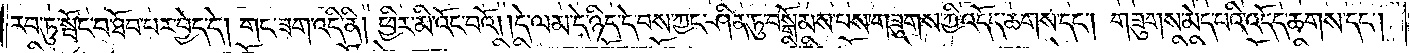རབ་ཏུ་སྤོང་བ་ཐོབ་པར་བྱེད་དེ། གང་ཟག་འདི་ནི། ཕྱིར་མི་འོང་བའོ། །དེ་ལམ་དེ་ཉིད་དེ་བས་ཀྱང་ཤིན་ཏུ་བསྒོམས་པས་གཟུགས་ཀྱི་འདོད་ཆགས་དང༌། གཟུགས་མེད་པའི་འདོད་ཆགས་དང༌།
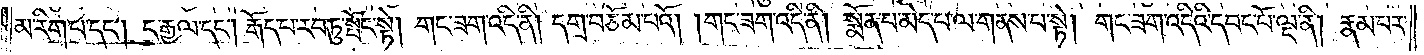མ་རིག་པ་དང༌། ང་རྒྱལ་དང༌། རྒོད་པ་རབ་ཏུ་སྤོང་སྟེ། གང་ཟག་འདི་ནི། དགྲ་བཅོམ་པའོ། །གང་ཟག་འདི་ནི། སྨོན་པ་མེད་པ་ལ་གནས་པ་སྟེ། གང་ཟག་འདིའི་དབང་པོ་ལྔ་ནི། རྣམ་པར་
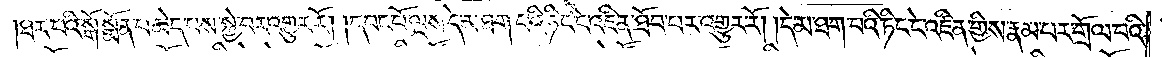ཐར་བའི་སྒོ་སྨོན་པ་མེད་པས་སྐྱེ་བར་འགྱུར་རོ། །དབང་པོ་ལྔས་དེ་མ་ཐག་པའི་ཏིང་ངེ་འཛིན་ཐོབ་པར་འགྱུར་རོ། །དེ་མ་ཐག་པའི་ཏིང་ངེ་འཛིན་གྱིས་རྣམ་པར་གྲོལ་བའི་
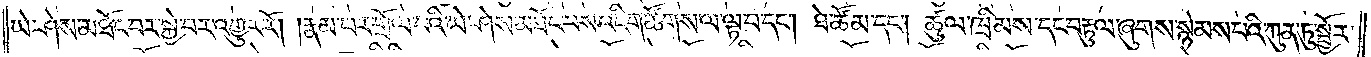ཡེ་ཤེས་མཐོང་བར་སྐྱེ་བར་འགྱུར་རོ། །རྣམ་པར་གྲོལ་བའི་ཡེ་ཤེས་མཐོང་བས་འཇིག་ཚོགས་ལ་ལྟ་བ་དང༌། ཐེ་ཚོམ་དང༌། ཚུལ་ཁྲིམས་དང་བརྟུལ་ཞུགས་སྙེམས་པའི་ཀུན་ཏུ་སྦྱོར་
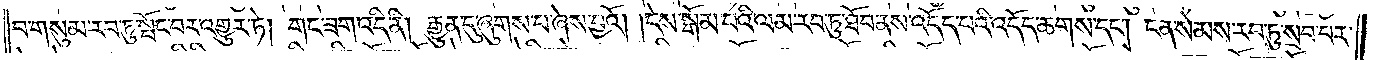བ་གསུམ་རབ་ཏུ་སྤོང་བར་འགྱུར་ཏེ། གང་ཟག་འདི་ནི། རྒྱུན་དུ་ཞུགས་པ་ཞེས་བྱའོ། །དེས་སྒོམ་པའི་ལམ་རབ་ཏུ་ཐོབ་ནས་འདོད་པའི་འདོད་ཆགས་དང༌། ངན་སེམས་རབ་ཏུ་སྲབ་པར་
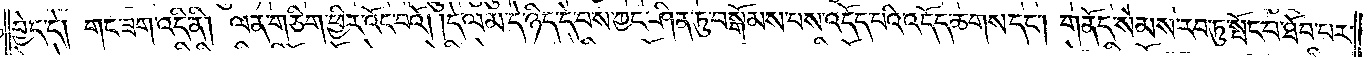བྱེད་དེ། གང་ཟག་འདི་ནི། ལན་གཅིག་ཕྱིར་འོང་བའོ། །དེ་ལམ་དེ་ཉིད་དེ་བས་ཀྱང་ཤིན་ཏུ་བསྒོམས་པས་འདོད་པའི་འདོད་ཆགས་དང༌། གནོད་སེམས་རབ་ཏུ་སྤོང་བ་ཐོབ་པར་
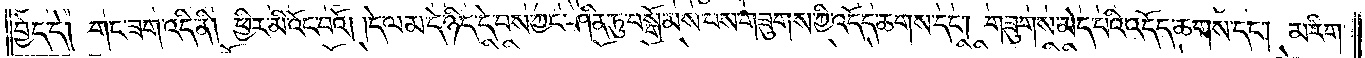བྱེད་དེ། གང་ཟག་འདི་ནི། ཕྱིར་མི་འོང་བའོ། །དེ་ལམ་དེ་ཉིད་དེ་བས་ཀྱང་ཤིན་ཏུ་བསྒོམས་པས་གཟུགས་ཀྱི་འདོད་ཆགས་དང༌། གཟུགས་མེད་པའི་འདོད་ཆགས་དང༌། མ་རིག་
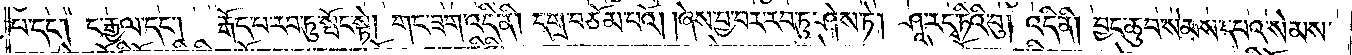པ་དང༌། ང་རྒྱལ་དང༌། རྒོད་པ་རབ་ཏུ་སྤོང་སྟེ། གང་ཟག་འདི་ནི། དགྲ་བཅོམ་པའོ། །ཞེས་བྱ་བར་རབ་ཏུ་ཤེས་ཏེ། ཤཱ་རདྭ་ཏིའི་བུ། འདི་ནི། བྱང་ཆུབ་སེམས་དཔའ་སེམས་
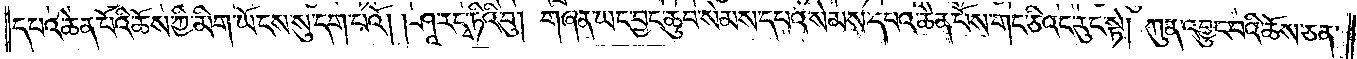དཔའ་ཆེན་པོའི་ཆོས་ཀྱི་མིག་ཡོངས་སུ་དག་པའོ། །ཤཱ་རདྭ་ཏིའི་བུ། གཞན་ཡང་བྱང་ཆུབ་སེམས་དཔའ་སེམས་དཔའ་ཆེན་པོས་གང་ཅིའང་རུང་སྟེ། ཀུན་འབྱུང་བའི་ཆོས་ཅན་
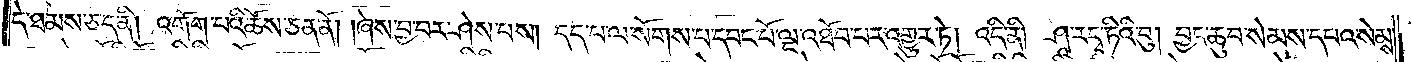དེ་ཐམས་ཅད་ནི། འགོག་པའི་ཆོས་ཅན་ནོ། །ཞེས་བྱ་བར་ཤེས་པས། དད་པ་ལ་སོགས་པ་དབང་པོ་ལྔ་འཐོབ་པར་འགྱུར་ཏེ། འདི་ནི། ཤཱ་རདྭ་ཏིའི་བུ། བྱང་ཆུབ་སེམས་དཔའ་སེམས་
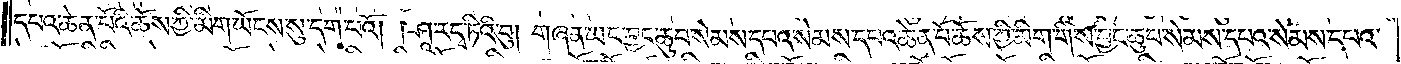དཔའ་ཆེན་པོའི་ཆོས་ཀྱི་མིག་ཡོངས་སུ་དག་པའོ། །ཤཱ་རདྭ་ཏིའི་བུ། གཞན་ཡང་བྱང་ཆུབ་སེམས་དཔའ་སེམས་དཔའ་ཆེན་པོ་ཆོས་ཀྱི་མིག་གིས་བྱང་ཆུབ་སེམས་དཔའ་སེམས་དཔའ་
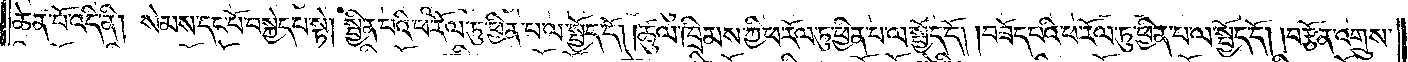ཆེན་པོ་འདི་ནི། སེམས་དང་པོ་བསྐྱེད་པ་སྟེ། སྦྱིན་པའི་ཕ་རོལ་ཏུ་ཕྱིན་པ་ལ་སྤྱོད་དོ། །ཚུལ་ཁྲིམས་ཀྱི་ཕ་རོལ་ཏུ་ཕྱིན་པ་ལ་སྤྱོད་དོ། །བཟོད་པའི་ཕ་རོལ་ཏུ་ཕྱིན་པ་ལ་སྤྱོད་དོ། །བརྩོན་འགྲུས་
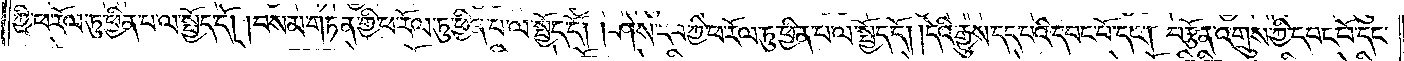ཀྱི་ཕ་རོལ་ཏུ་ཕྱིན་པ་ལ་སྤྱོད་དོ། །བསམ་གཏན་གྱི་ཕ་རོལ་ཏུ་ཕྱིན་པ་ལ་སྤྱོད་དོ། །ཤེས་རབ་ཀྱི་ཕ་རོལ་ཏུ་ཕྱིན་པ་ལ་སྤྱོད་དོ། །དེའི་རྒྱུས་དད་པའི་དབང་པོ་དང༌། བརྩོན་འགྲུས་ཀྱི་དབང་པོ་དང་
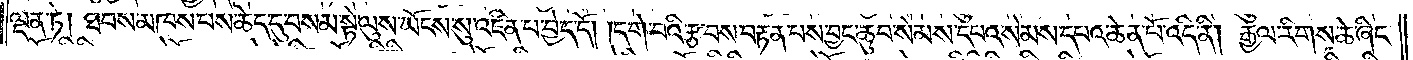ལྡན་ཏེ། ཐབས་མཁས་པས་ཆེད་དུ་བསམ་སྟེ་ལུས་ཡོངས་སུ་འཛིན་པ་བྱེད་དོ། །དགེ་བའི་རྩ་བས་བརྟན་པས་བྱང་ཆུབ་སེམས་དཔའ་སེམས་དཔའ་ཆེན་པོ་འདི་ནི། རྒྱལ་རིགས་ཆེ་ཞིང་
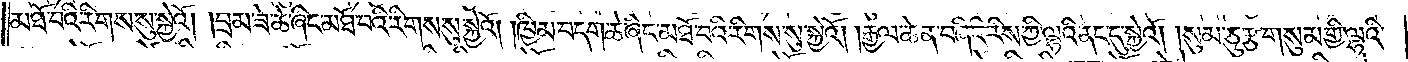མཐོ་བའི་རིགས་སུ་སྐྱེའོ། །བྲམ་ཟེ་ཆེ་ཞིང་མཐོ་བའི་རིགས་སུ་སྐྱེའོ། །ཁྱིམ་བདག་ཆེ་ཞིང་མཐོ་བའི་རིགས་སུ་སྐྱེའོ། །རྒྱལ་ཆེན་བཞིའི་རིས་ཀྱི་ལྷའི་ནང་དུ་སྐྱེའོ། །སུམ་ཅུ་རྩ་གསུམ་གྱི་ལྷའི་
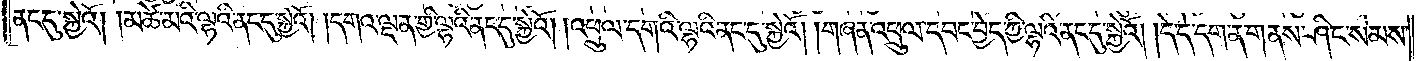ནང་དུ་སྐྱེའོ། །མཚེ་མའི་ལྷའི་ནང་དུ་སྐྱེའོ། །དགའ་ལྡན་གྱི་ལྷའི་ནང་དུ་སྐྱེའོ། །འཕྲུལ་དགའི་ལྷའི་ནང་དུ་སྐྱེའོ། །གཞན་འཕྲུལ་དབང་བྱེད་ཀྱི་ལྷའི་ནང་དུ་སྐྱེའོ། །དེ་དེ་དག་ན་གནས་ཤིང་སེམས་
